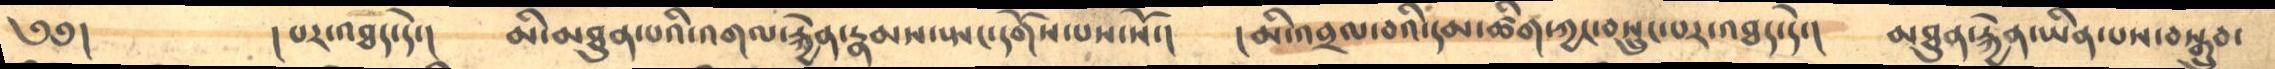༄༅།         །པར་འཐད་དེ་།    མི་མཐུན་པའི་འགལ་རྐྱེན་རྣམས་སྤང་དགོས་པས་སོ་།     །མི་འབྲལ་བའི་དམ་ཚིག་ཀྱང་བསྲུང་པར་འཐད་དེ་།   མཐུན་རྐྱེན་ཡིན་པས་བསྒྲུབ་
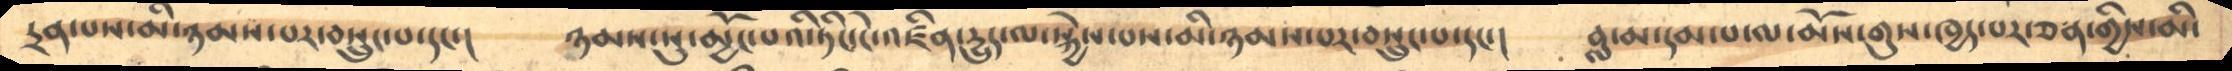དྲན་པས་མི་ཉམས་པར་བསྲུང་པ་དདང་།      ཉམས་སུ་མྱོང་པའི་ཏིང་ངེ་འཛིན་དྱུད་ལ་སྐྱེས་པས་མི་ཉམས་པར་བསྲུང་པ་དང་།    བླ་མ་དམ་པ་ལ་མོས་གུས་ཁྱད་པར་ཅན་གྱིས་མི་
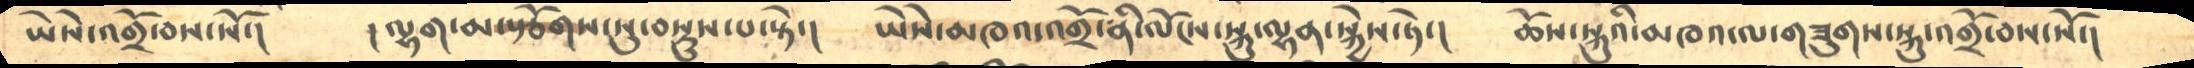ཡཻས་འགྲོ་བས་སོ་།     །ལྷག་མ་སྩོགས་སུ་བསྡུས་པ་སྟེ་།    ཡཻས་མཁའ་འགྲོ་ནི་ལོངས་སྐུ་ལྷན་སྐྱེས་ཏེ་།    ཆོས་སྐུའི་མཁའ་ལ་གཟུགས་སྐུ་འགྲོ་བས་སོ་།
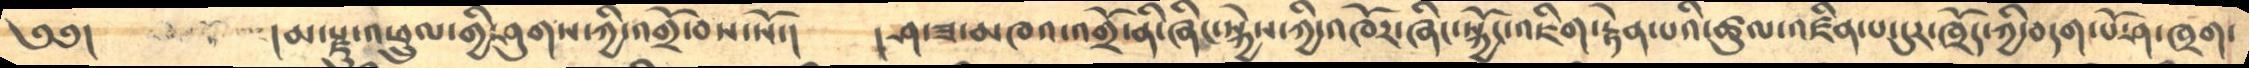༄༅།      །མ་རྫུ་འཕྲུལ་གྱི་ཤུགས་ཀྱི་འགྲོ་བས་སོ་།    །ཤ་ཟ་མཁའ་འགྲོ་ནི་ཞིང་སྐྱེས་ཀྱི་འཁོར་ཞིང་སྐྱོང་འཇིག་རྟེན་པའི་ཚུལ་འཛིན་པ་དུར་ཁྲོད་ཀྱི་བདག་པོ་ཤ་ཁྲག་
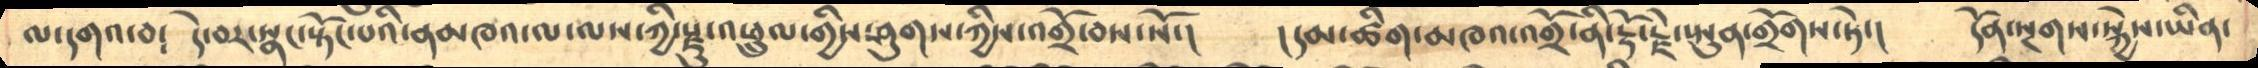མ་དགའ་བ༴   དེ་བར་སྣང་སྟོང་པའི་ནམཁའ་ལ་ལས་ཀྱི་རྫུ་འཕྲུལ་གྱིས་ཤུགས་ཀྱིས་འགྲོ་བས་སོ་།    །དམ་ཚིག་མཁའ་འགྲོ་ནི་རྡོ་རྗེ་སྤུན་གྲོགས་ཏེ་།     དོན་སྔགས་སྐྱེས་ཡིན་
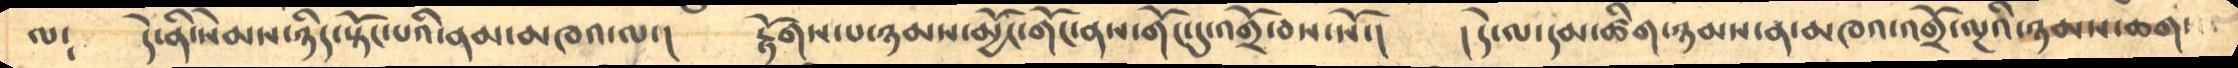ལ༴    དེ་ནི་སེམས་ཉིད་སྟོང་པའི་ནམ་མཁའ་ལ་།   རྟོགས་པ་ཉམས་མྱོང་གོང་ནས་གོང་དུ་འགྲོ་བས་སོ་།    །དེ་ལ་དམ་ཚིག་ཉམས་ན་མཁའ་འགྲོ་ལྔའི་ཉམས་ཆག་
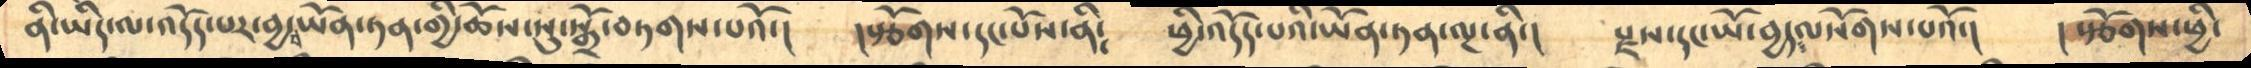ནི་ཡིད་ལ་འདོད་པར་བྱ་ཡོན་ཏན་གྱི་ཆོས་སུ་སྒྲོ་བཏགས་པའོ་།   །སྩོགས་དང་པོས་ནི༴   ཕྱི་འདོད་པའི་ཡོན་ཏན་ལྔ་ནི་།    རྫས་དང་ཡོ་བྱད་ལསོགས་པའོ་།    །སྩོགས་ཕྱི་
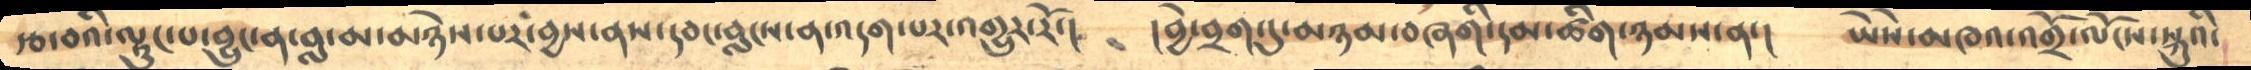རྩ་བའི་ལྟུང་པ་བྱུང་ན་བླ་མ་མཉེས་པར་བྱས་ནས་དབང་བླངས་ན་འདག་པར་འགྱུར་རོ་།    །བྱེ་བྲག་དུ་མཉམ་བཞགི་དམ་ཚིག་ཉམས་ན་།    ཡཻས་མཁའ་འགྲོ་ལོངས་སྐུའི་
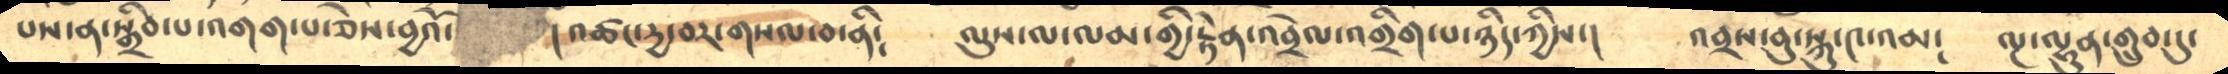པས་ན་སྒྲིབ་པ་འགག་པ་ཅེས་བྱའོ་། འཚང་དྱ་བར་གསལ་བ་ནི༴  ལུས་ལ་ལམ་གྱི་རྟེན་འབྲེལ་འགྲིག་པ་ཉིད་ཀྱིས་།  འབྲས་བུ་སྐུ་༤་འམ༴  ལྔ་ལྷུན་གྲུབ་དུ་
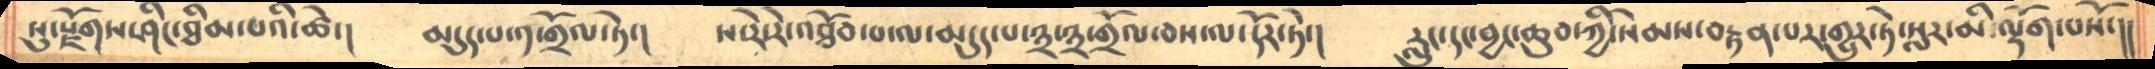སུ་སྫོགས་ཤིང་ཐིམ་པའི་ཚེ་།    མདུད་པ་༡་གྲོལ་ཏེ་།    ས་རེ་རེ་འཐོབ་པ་ལ་མདུད་པ་༣་༣་གྲོལ་བས་ལ་དོར་ཏེ་།     རླུང་དང་བྱང་ཆུབ་ཀྱི་སེམས་བརྟན་པར་གྱུར་ཏེ་སླར་མི་ལྡོག་པསོ་།
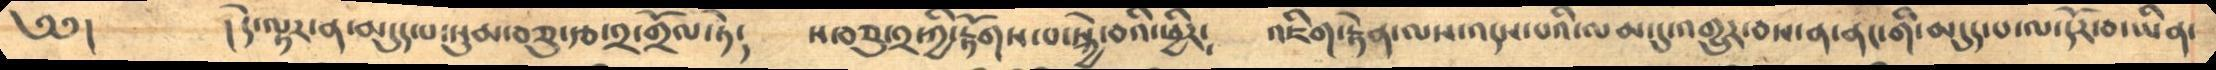༄༅།      ། དེ་ལྟར་ན་མདུད་པ་སུམ་བཅུ་རྩ་༢་གྲོལ་ཏེ༴     ས་བཅུ་༢་ཀྱི་རྟོགས་པ་སྐྱེ་བའི་ཕྱིར༴    འཇིག་རྟེན་ལས་འདས་པའི་ལམ་དུ་འགྱུར་བས་ན་ནང་གི་མདུད་པ་ལ་དོར་བ་ཡིན་
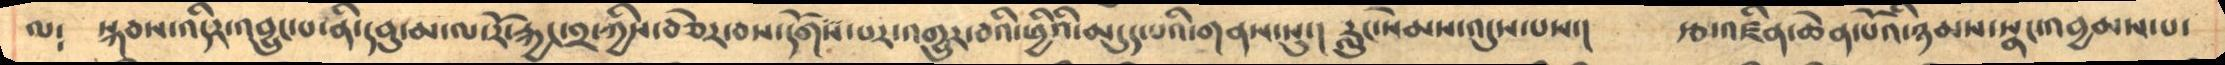ལ༴     སྐབས་འདིར་འབྱུང་པ་ནི་དབུ་མ་ལ་རོ་རྐྱང་༢་ཀྱིས་བཅེར་བས་དོགས་པར་འགྱུར་བའི་ཕྱིའི་མདུད་པའི་གནས་སུ་།  རླུང་སེམས་འདུས་པས་།     རྩ་འཛིན་ཆེན་པོའི་ཉམས་སྣང་འབྱམས་པ་
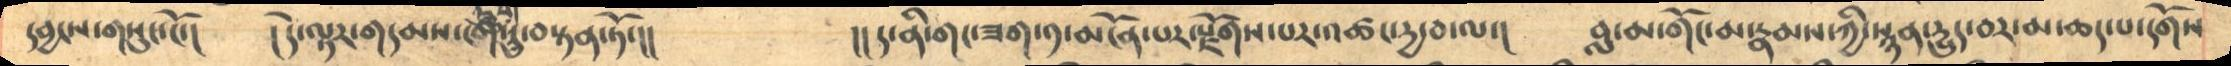དབྱངས་གསུང་ངོ་།    །དེ་ལྟར་གདམས་ངག་དུ་བསྟན་ཏོ་།།         །།ད་ནི་གང་ཟག་༡་མངོན་པར་རྫོགས་པར་འཚང་དྱ་བ་ལ་།    བླ་མ་གོང་མ་རྣམས་ཀྱི་སྙན་དྱུད་བར་མ་ཆད་པ་དགོས
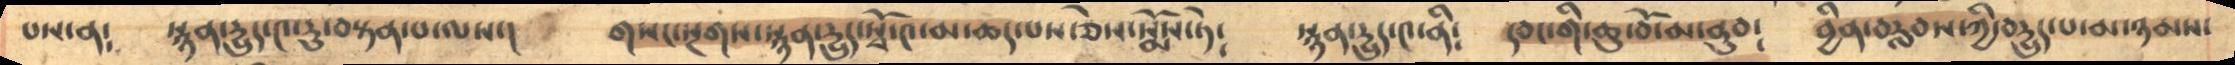པས་ན༴      སྙན་དྱུད་༤་རུ་བསྟན་པ་ལས་།    གསང་སྔགས་སྙན་དྱུད་སྭོ་༤་མ་ཆད་པས་ཅེས་སྨོས་ཏེ༴     སྙན་དྱུད་༤་ནི༴   དབང་གི་ཆུ་བོ་མ་ནུབ༴    བྱིན་བརླབས་ཀྱི་བདྱུད་པ་མ་ཉམས་
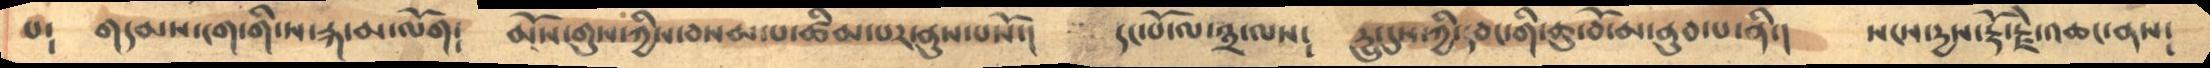པ༴   གདམས་ངག་གི་ས་རྐ་མ་ལོག༴     མོས་གུས་ཀྱིས་བསམ་པ་ཚིམ་པར་ནུས་པསོ་།    དང་པོ་ལ་༣་ལས༴     དྱུ་དུས་ཀྱི་དབང་གི་ཆུ་བོ་མ་ནུབ་པ་ནི་།    སངས་དྱས་རྡོ་རྗེ་འཆང་ནས༴
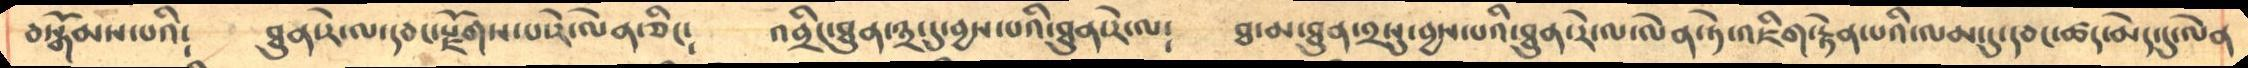བསྒོམས་པའི༴    ཐུན་རེ་ལ་དབང་རྫོགས་པ་རེ་ལེན་ཅིང༴    འབྲིང་ཐུན་༣་དུ་བྱས་པའི་ཐུན་རེ་ལ༴     ཐ་མ་ཐུན་༢སུ་བྱས་པའི་ཐུན་རེ་ལ་ལེན་ཏེ་འཇིག་རྟེན་པའི་ལམ་དུ་དབང་ཚད་མེད་དུ་ལེན
